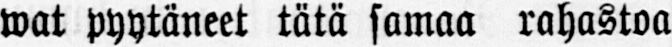wat pyytäneet tätä samaa rahastoa
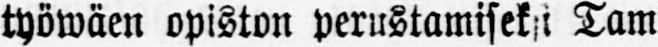työwäen opiston perustamiseksi Tam-
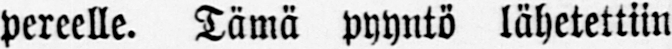pereelle. Tämä pyyntö lähetettiin
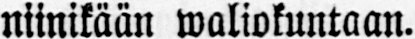niinikään waliokuntaan.
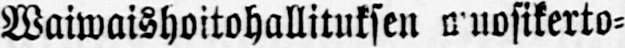Waiwaishoitohallituksen wuosikerto-
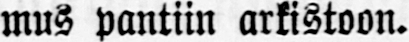mus pantiin arkistoon.
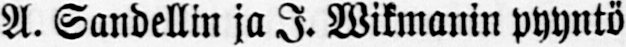A. Sandellin ja I. Wikmanin pyyntö
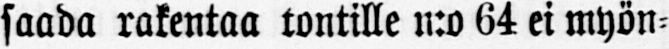saada rakentaa tontille n:o 64 ei myön-
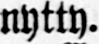nytty.
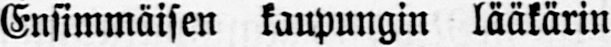Ensimmäisen kaupungin lääkärin
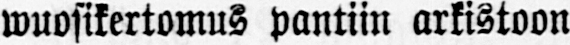wuosikertomus pantiin arkistoon
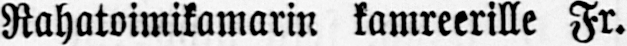Rahatoimikamarin kamreerille Fr.
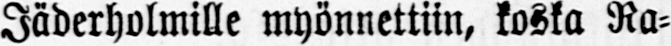Jäderholmille myönnettiin, koska Ra-
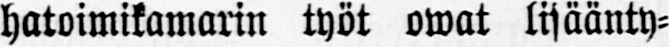hatoimikamarin työt owat lisäänty-
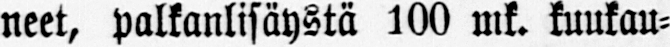neet, palkanlisäystä 100 mk. kuukau-
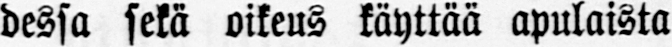dessa sekä oikeus käyttää apulaista
